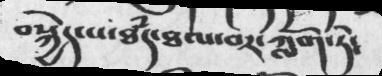བསྐྱེད་པ་ཐཾད་ཐལ་བར་ཀློག་ཏེ༴
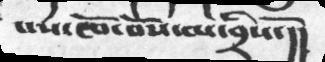པས་ཁོ་བོས་མ་བྲིསོ་།།
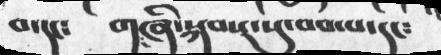བ་དང༴  གཞི་སྐབས་སུ་བབ་པ་དང༴
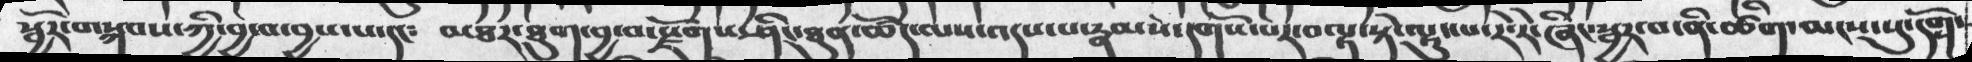སྦྱོར་བ་སྐབས་ཀྱི་བྱ་བ་བྱས་པ་དང༴ མཐར་ཐུག་བྱ་བ་སྫོགས་ཤིང་ཐུན་ཚོད་ལས་འདས་པ་རྣམས་དགོས་པར་བལྟ་སྟེ་ལྟུང་པ་རེ་རེ་ཞིང་སྦྱར་བ་ནི་ཚིག་མངས་སུ་དགོ་
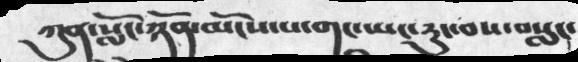ཀུན་སློང་ཉོན་མོངས་གང་ཡང་རུང་བས་བསླང་
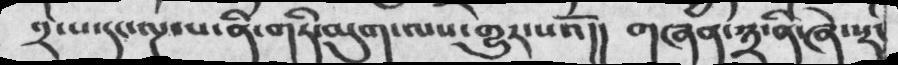༢་པ་དང་ལྔ་པ་ནི་གཏི་མུག་ལས་གྱུར་པའོ།། གཞན་༣་ནི་ཞེ་སྡང
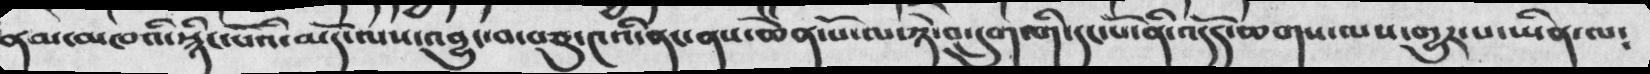ནམ་མཁའི་སྙིང་པོའི་མདོ་ལས་འབྱུང་བ་བཅུ་༤འི་ནང་ནས་ཆེན་པོ་ལ་ཉེ་བ་དྲུག་གི་དང་པོ་ནི་འདོད་ཆགས་ལས་གྱུར་པ་ཡིན་ལ༴
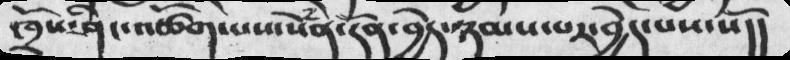ཁྲོས་ཤིང་འཚོགས་པས་སེཾན་དོན་བྱེད་ཉམས་པར་བྱེད་པས་སོ།།
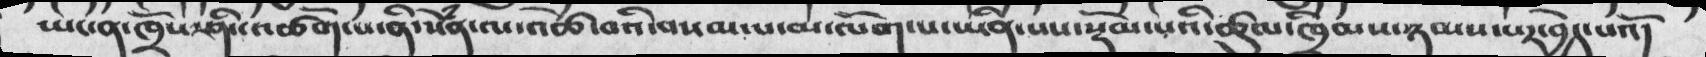ཡང་ན་ཁྲོས་ཤིང་འཚོག་པ་ནི་སེཾན་ལ་འཚེ་བའི་བསམ་པ་མ་ལོག་པ་ཡིན་པས་སྡོམ་པའི་ཚུལ་ཁྲིམས་ཉམས་པར་བྱེད་པའོ།
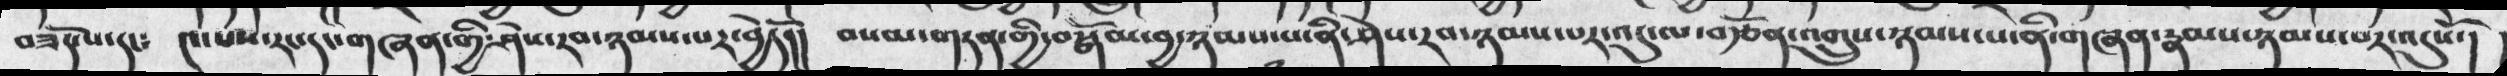བཟོད་པ་དང༴ ༤་པས་རང་དང་གཞན་གྱི་ཤེས་རབ་ཉམས་པར་བྱེདོ།། བསམ་གཏན་གྱི་བསྒོམ་བྱ་ཉམས་པ་ནི་ཤེས་རབ་ཉམས་པར་འདུ་ལ་བརྩོན་འགྲུས་ཉམས་པ་ནི་གཞན་རྣམས་ཉམས་པར་འདུསོ་།
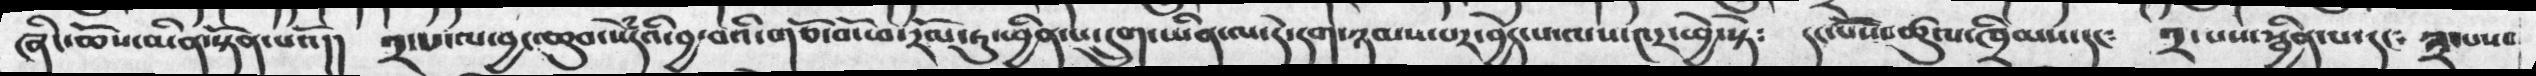ཞིང་ཆོས་མིན་སྟོན་པའོ།། ༢་པ་ལ་བྱང་ཆུབ་སེཾདའི་བྱ་བའི་གཙོ་བོ་ཕ་རོལ་ཏུ་ཕྱིན་པ་དྲུག་ཡིན་ལ་དེ་དག་ཉམས་པར་བྱེད་པ་ལས་༤ར་ཕྱེ་སྟེ༴ དང་པོས་ཚུལ་ཁྲིམས་དང༴ ༢་པས་སྦྱིན་པ་དང༴ ༣་པས་
